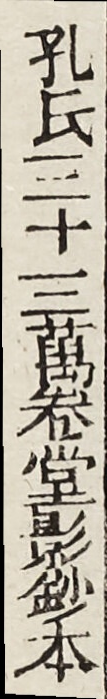孔氏三十三萬卷堂影鈔本
